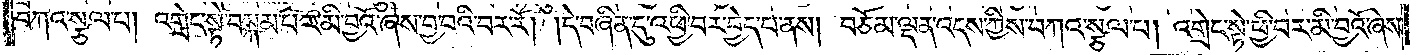བཀའ་སྩལ་པ། འགྲེང་སྟེ་བསྐམ་པར་མི་བྱའོ་ཞེས་བྱ་བའི་བར་རོ། །དེ་བཞིན་དུ་འཕྱི་བར་བྱེད་པ་ནས། བཅོམ་ལྡན་འདས་ཀྱིས་བཀའ་སྩལ་པ། འགྲེང་སྟེ་ཕྱི་བར་མི་བྱའོ་ཞེས་
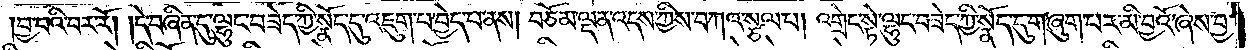བྱ་བའི་བར་རོ། །དེ་བཞིན་དུ་ལྷུང་བཟེད་ཀྱི་སྣོད་དུ་འཇུག་པ་བྱེད་པ་ནས། བཅོམ་ལྡན་འདས་ཀྱིས་བཀའ་སྩལ་པ། འགྲེང་སྟེ་ལྷུང་བཟེད་ཀྱི་སྣོད་དུ་གཞུག་པར་མི་བྱའོ་ཞེས་བྱ་
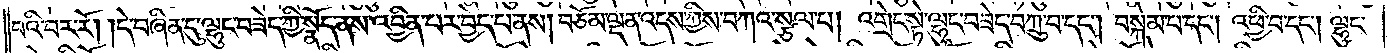བའི་བར་རོ། །དེ་བཞིན་དུ་ལྷུང་བཟེད་ཀྱི་སྣོད་ནས་འབྱིན་པར་བྱེད་པ་ནས། བཅོམ་ལྡན་འདས་ཀྱིས་བཀའ་སྩལ་པ། འགྲེང་སྟེ་ལྷུང་བཟེད་པ་བཀྲུ་བ་དང༌། བསྐམ་པ་དང༌། འཕྱི་བ་དང༌། ལྷུང་
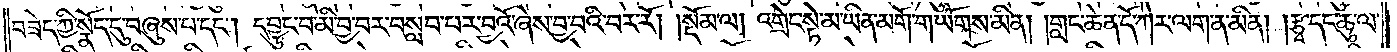བཟེད་ཀྱི་སྣོད་དུ་བཞུས་པ་དང༌། དབྱུང་བ་མི་བྱ་བར་བསླབ་པར་བྱའོ་ཞེས་བྱ་བའི་བར་རོ། །སྡོམ་ལ། འགྲེང་སྟེ་མ་ཡིན་མགོ་གཡོགས་མིན། །གླང་ཆེན་དོ་ཀེར་ལག་ན་མིན། །རྩྭ་དང་ཆུ་ལ་
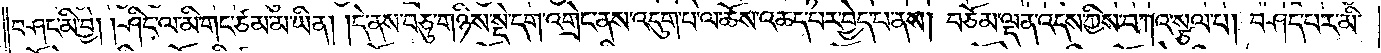བཤང་མི་བྱ། །ཤིང་ལ་མི་གང་ཙམ་མ་ཡིན། །དེ་ནས་བཅུ་གཉིས་སྡེ་དག་འགྲེང་ནས་འཇུག་པ་ལ་ཆོས་འཆད་པར་བྱེད་པ་ནས། བཅོམ་ལྡན་འདས་ཀྱིས་བཀའ་སྩལ་པ། བཤད་པར་མི་
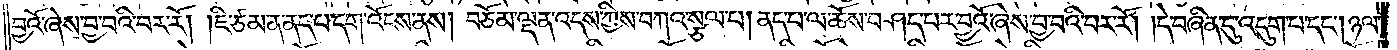བྱའོ་ཞེས་བྱ་བའི་བར་རོ། །ཇི་ཙམ་ན་ནད་པ་དག་འོངས་ནས། བཅོམ་ལྡན་འདས་ཀྱིས་བཀའ་སྩལ་པ། ནད་པ་ལ་ཆོས་བཤད་པར་བྱའོ་ཞེས་བྱ་བའི་བར་རོ། །དེ་བཞིན་དུ་འདུག་པ་དང༌། ཉལ་
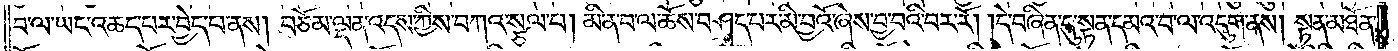བ་ལ་ཡང་འཆད་པར་བྱེད་པ་ནས། བཅོམ་ལྡན་འདས་ཀྱིས་བཀའ་སྩལ་པ། མི་ན་བ་ལ་ཆོས་བཤད་པར་མི་བྱའོ་ཞེས་བྱ་བའི་བར་རོ། །དེ་བཞིན་དུ་སྟན་དམའ་བ་ལ་འདུག་ནས། སྟན་མཐོན་
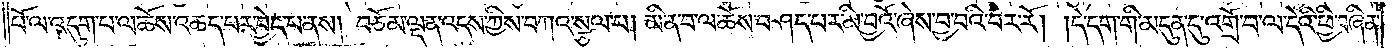པོ་ལ་འདུག་པ་ལ་ཆོས་འཆད་པར་བྱེད་པ་ནས། བཅོམ་ལྡན་འདས་ཀྱིས་བཀའ་སྩལ་པ། མི་ན་བ་ལ་ཆོས་བཤད་པར་མི་བྱའོ་ཞེས་བྱ་བའི་བར་རོ། །དེ་དག་གི་མདུན་དུ་འགྲོ་བ་ལ་དེའི་ཕྱི་བཞིན་
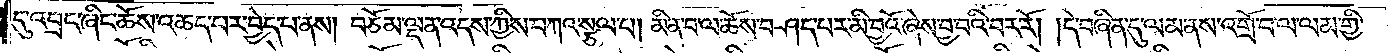དུ་འབྲང་ཞིང་ཆོས་འཆད་པར་བྱེད་པ་ནས། བཅོམ་ལྡན་འདས་ཀྱིས་བཀའ་སྩལ་པ། མི་ན་བ་ལ་ཆོས་བཤད་པར་མི་བྱའོ་ཞེས་བྱ་བའི་བར་རོ། །དེ་བཞིན་དུ་ལམ་ནས་འགྲོ་བ་ལ་ལམ་གྱི་
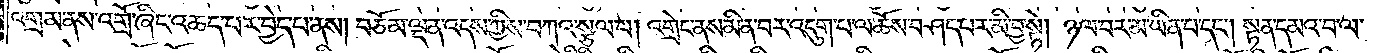འགྲམ་ནས་འགྲོ་ཞིང་འཆད་པར་བྱེད་པ་ནས། བཅོམ་ལྡན་འདས་ཀྱིས་བཀའ་སྩལ་པ། འགྲེང་ནས་མི་ན་བར་འདུག་པ་ལ་འཆོས་བཤད་པར་མི་བྱ་སྟེ། ཉལ་བར་མ་ཡིན་པ་དང༌། སྟན་དམའ་བ་ལ་
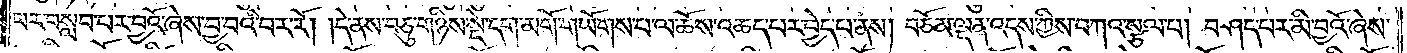པར་བསླབ་པར་བྱའོ་ཞེས་བྱ་བའི་བར་རོ། །དེ་ནས་བཅུ་གཉིས་སྡེ་དག་མགོ་གཡོགས་པ་ལ་ཆོས་འཆད་པར་བྱེད་པ་ནས། བཅོམ་ལྡན་འདས་ཀྱིས་བཀའ་སྩལ་པ། བཤད་པར་མི་བྱའོ་ཞེས་
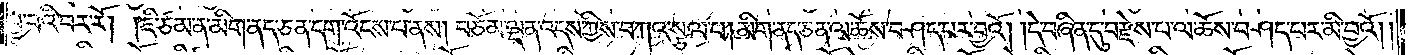བྱ་བའི་བར་རོ། །ཇི་ཙམ་ན་མིག་ནད་ཅན་དག་འོངས་པ་ནས། བཅོམ་ལྡན་འདས་ཀྱིས་བཀའ་སྩལ་པ། མིག་ནད་ཅན་ལ་ཆོས་བཤད་པར་བྱའོ། །དེ་བཞིན་དུ་བརྫེས་པ་ལ་ཆོས་བཤད་པར་མི་བྱའོ། །
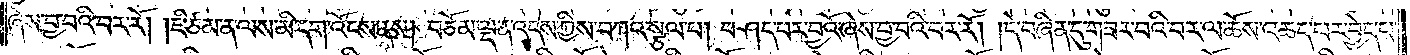ཞེས་བྱ་བའི་བར་རོ། །ཇི་ཙམ་ན་ལས་མི་དག་འོངས་ནས། བཅོམ་ལྡན་འདས་ཀྱིས་བཀའ་སྩལ་པ། བཤད་པར་བྱའོ་ཞེས་བྱ་བའི་བར་རོ། །དེ་བཞིན་དུ་གཟར་བའི་བར་ལ་ཆོས་འཆད་པར་བྱེད་པ་
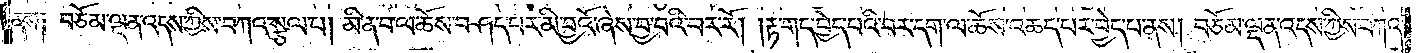ནས༑ བཅོམ་ལྡན་འདས་ཀྱིས་བཀའ་སྩལ་པ། མི་ན་བ་ལ་ཆོས་བཤད་པར་མི་བྱའོ་ཞེས་བྱ་བའི་བར་རོ། །རྟ་གད་བྱེད་པའི་བར་དག་ལ་ཆོས་འཆད་པར་བྱེད་པ་ནས། བཅོམ་ལྡན་འདས་ཀྱིས་བཀའ་
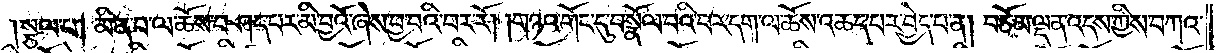སྩལ་པ། མི་ན་བ་ལ་ཆོས་བཤད་པར་མི་བྱའོ་ཞེས་བྱ་བའི་བར་རོ། །གཉའ་གོང་དུ་བསྣོལ་བའི་བར་དག་ལ་ཆོས་འཆད་པར་བྱེད་པ་ན། བཅོམ་ལྡན་འདས་ཀྱིས་བཀའ་
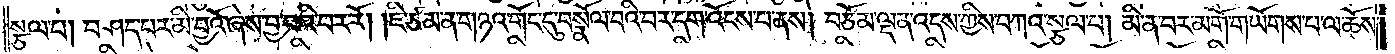སྩལ་པ། བཤད་པར་མི་བྱའོ་ཞེས་བྱ་བའི་བར་རོ། །ཇི་ཙམ་ན་གཉའ་གོང་དུ་བསྣོལ་བའི་བར་དག་འོངས་པ་ནས། བཅོམ་ལྡན་འདས་ཀྱིས་བཀའ་སྩལ་པ། མི་ན་བར་མགོ་གཡོགས་པ་ལ་ཆོས་
